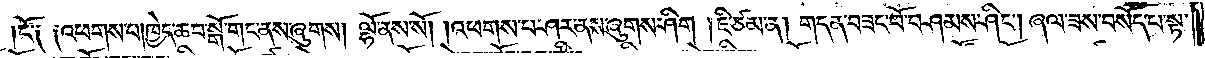ངོ༑ ༑འཕགས་པ། ཁྱེད་ཆབ་སྒོ་གང་ནས་ཞུགས། ལྷོ་ནས་སོ། །འཕགས་པ་ཤར་ནས་ཞུགས་ཤིག །ཇི་ཙམ་ན། གདན་བཟང་པོ་བཤམས་ཤིང༌། ཞལ་ཟས་བསོད་པ་སྟ་
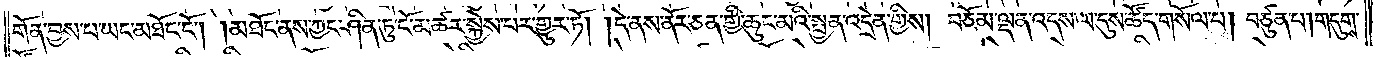གོན་བྱས་པ་ཡང་མཐོང་ངོ༌། །མཐོང་ནས་ཀྱང་ཤིན་ཏུ་ངོ་མཚར་སྐྱེས་པར་གྱུར་ཏོ། །དེ་ནས་ནོར་ཅན་གྱི་ཆུང་མའི་སྤྱན་འདྲེན་གྱིས། བཅོམ་ལྡན་འདས་ལ་དུས་ཚོད་གསོལ་པ། བཙུན་པ། གདུགས་
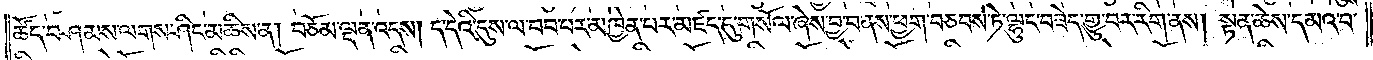ཚོད་བཤམས་ལགས་ཤིང་མཆིས་ན། བཅོམ་ལྡན་འདས། ད་དེའི་དུས་ལ་བབ་པར་མཁྱེན་པར་མཛད་དུ་གསོལ་ཞེས་བྱ་བ་ནས་ཕྱག་བཅབས་ཏེ་ལྷུང་བཟེད་གྱུ་བར་རིག་ནས། སྟན་ཆེས་དམའ་བ་
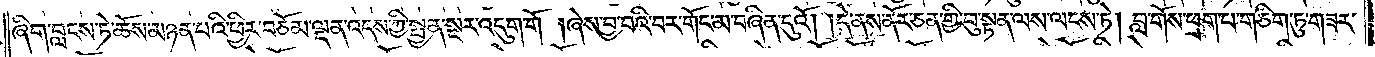ཞིག་བླངས་ཏེ་ཆོས་མཉན་པའི་ཕྱིར་བཅོམ་ལྡན་འདས་ཀྱི་སྤྱན་སྔར་འདུག་གོ །ཞེས་བྱ་བའི་བར་གོང་མ་བཞིན་དུའོ། །དེ་ནས་ནོར་ཅན་གྱི་བུ་སྟན་ལས་ལངས་ཏེ། བླ་གོས་ཕྲག་པ་གཅིག་ཏུ་གཟར་
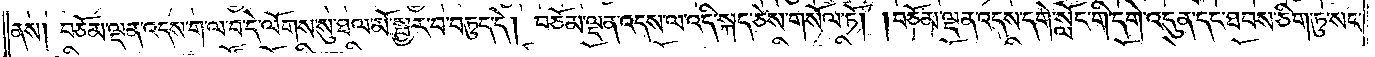ནས། བཅོམ་ལྡན་འདས་ག་ལ་བ་དེ་ལོགས་སུ་ཐལ་མོ་སྦྱར་བ་བཏུད་དེ། བཅོམ་ལྡན་འདས་ལ་འདི་སྐད་ཅེས་གསོལ་ཏོ། །བཅོམ་ལྡན་འདས་དགེ་སློང་གི་དགེ་འདུན་དང་ཐབས་ཅིག་ཏུ་སང་
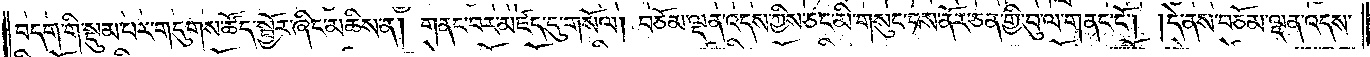བདག་གི་སྡུམ་པར་གདུགས་ཚོད་སྦྱོར་ཞིང་མཆིས་ན། གནང་བར་མཛད་དུ་གསོལ། བཅོམ་ལྡན་འདས་ཀྱིས་ཅང་མི་གསུང་བས་ནོར་ཅན་གྱི་བུ་ལ་གནང་ངོ༌། །དེ་ནས་བཅོམ་ལྡན་འདས་
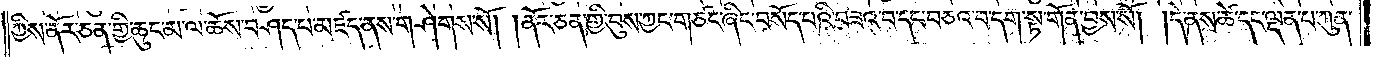ཀྱིས་ནོར་ཅན་གྱི་ཆུང་མ་ལ་ཆོས་བཤད་པ་མཛད་ནས་གཤེགས་སོ། །ནོར་ཅན་གྱི་བུས་ཀྱང་གཙང་ཞིང་བསོད་པའི་བཟའ་བ་དང་བཅའ་བ་དག་སྟ་གོན་བྱས་སོ། །དེ་ནས་ཚེ་དང་ལྡན་པ་ཀུན་
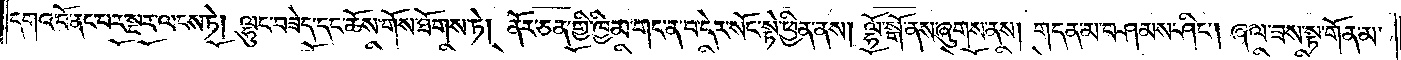དགའ་བོ་ནང་པར་སྔར་ལངས་ཏེ། ལྷུང་བཟེད་དང་ཆོས་གོས་ཐོགས་ཏེ། ནོར་ཅན་གྱི་ཁྱིམ་གང་ན་བ་དེར་སོང་སྟེ་ཕྱིན་ནས། ལྷོ་སྒོ་ནས་ཞུགས་ནས། གདན་མ་བཤམས་ཤིང༌། ཞལ་ཟས་སྟ་གོན་མ་
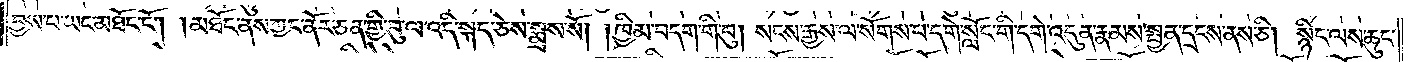བྱས་པ་ཡང་མཐོང་ངོ༌། །མཐོང་ནས་ཀྱང་ནོར་ཅན་གྱི་བུ་ལ་འདི་སྐད་ཅེས་སྨྲས་སོ། །ཁྱིམ་བདག་གི་བུ། སངས་རྒྱས་ལ་སོགས་པ་དགེ་སློང་གི་དགེ་འདུན་རྣམས་སྤྱན་དྲངས་ནས་ཅི། སྙིང་ལས་ཆུང་
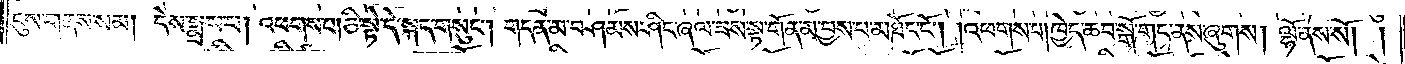ངུས་གནས་སམ། དེས་སྨྲས་པ། འཕགས་པ། ཅི་སྟེ་དེ་སྐད་གསུང༌། གདན་མ་བཤམས་ཤིང་ཞལ་ཟས་སྟ་གོན་མ་བྱས་པ་མཐོང་ངོ༌། །འཕགས་པ། ཁྱེད་ཆབ་སྒོ་གང་ནས་ཞུགས། ལྷོ་ནས་སོ། །
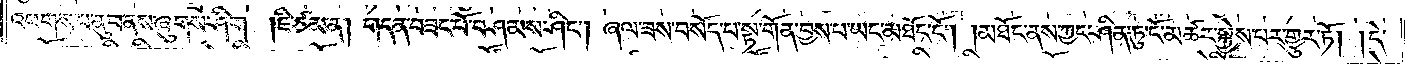འཕགས་པ་ནུབ་ནས་ཞུགས་ཤིག །ཇི་ཙམ་ན། གདན་བཟང་པོ་བཤམས་ཤིང༌། ཞལ་ཟས་བསོད་པ་སྟ་གོན་བྱས་པ་ཡང་མཐོང་ངོ༌། །མཐོང་ནས་ཀྱང་ཤིན་ཏུ་ངོ་མཚར་སྐྱེས་པར་གྱུར་ཏོ། །དེ་
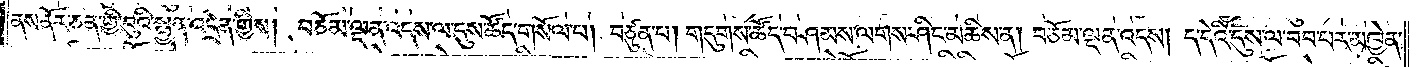ནས་ནོར་ཅན་གྱི་བུའི་སྤྱན་འདྲེན་གྱིས། བཅོམ་ལྡན་འདས་ལ་དུས་ཚོད་གསོལ་པ། བཙུན་པ། གདུགས་ཚོད་བཤམས་ལགས་ཤིང་མཆིས་ན། བཅོམ་ལྡན་འདས། ད་དེའི་དུས་ལ་བབ་པར་མཁྱེན་
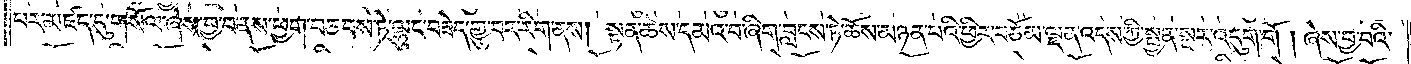པར་མཛད་དུ་གསོལ་ཞེས་བྱ་བ་ནས་ཕྱག་བཅབས་ཏེ་ལྷུང་བཟེད་གྱུར་བར་རིག་ནས། སྟན་ཆེས་དམའ་བ་ཞིག་བླངས་ཏེ་ཆོས་མཉན་པའི་ཕྱིར་བཅོམ་ལྡན་འདས་ཀྱི་སྤྱན་སྔར་འདུག་གོ །ཞེས་བྱ་བའི་
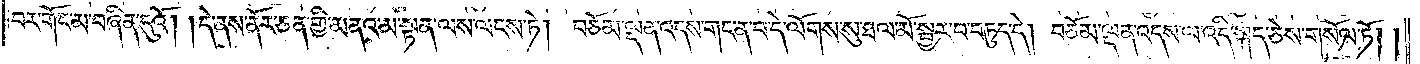བར་གོང་མ་བཞིན་དུའོ། །དེ་ནས་ནོར་ཅན་གྱི་མནའ་མ་སྟན་ལས་ལངས་ཏེ། བཅོམ་ལྡན་འདས་གང་ན་བ་དེ་ལོགས་སུ་ཐལ་མོ་སྦྱར་བ་བཏུད་དེ། བཅོམ་ལྡན་འདས་ལ་འདི་སྐད་ཅེས་གསོལ་ཏོ། །
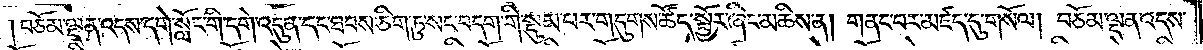།བཅོམ་ལྡན་འདས་དགེ་སློང་གི་དགེ་འདུན་དང་ཐབས་ཅིག་ཏུ་སང་བདག་གི་སྡུམ་པར་གདུགས་ཚོད་སྦྱོར་ཞིང་མཆིས་ན། གནང་བར་མཛད་དུ་གསོལ། བཅོམ་ལྡན་འདས་
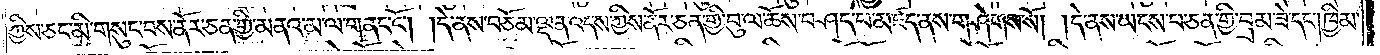ཀྱིས་ཅང་མི་གསུང་བས་ནོར་ཅན་གྱི་མནའ་མ་ལ་གནང་ངོ༌། །དེ་ནས་བཅོམ་ལྡན་འདས་ཀྱིས་ནོར་ཅན་གྱི་བུ་ལ་ཆོས་བཤད་པ་མཛད་ནས་གཤེགས་སོ། །དེ་ནས་ཡངས་པ་ཅན་གྱི་བྲམ་ཟེ་དང༌། ཁྱིམ་
